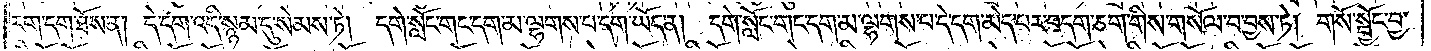རག་དག་ཐོས་ན། དེ་དག་འདི་སྙམ་དུ་སེམས་ཏེ། དགེ་སློང་གང་དག་མ་ལྷགས་པ་དག་ཡོད་ན། དགེ་སློང་གང་དག་མ་ལྷགས་པ་དེ་དག་མེད་པར་བདག་ཅག་གིས་གསོལ་བ་བྱས་ཏེ། གསོ་སྦྱོང་བྱ་
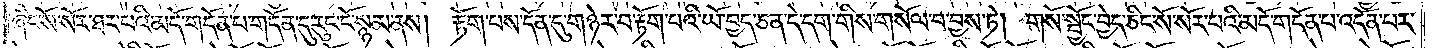ཞིང་སོ་སོར་ཐར་པའི་མདོ་གདོན་པ་གདོན་དུ་རུང་ངོ་སྙམ་ནས། རྟོག་པས་དོན་དུ་གཉེར་བ་རྟོག་པའི་ཡོ་བྱད་ཅན་དེ་དག་གིས་གསོལ་བ་བྱས་ཏེ། གསོ་སྦྱོང་བྱེད་ཅིང་སོ་སོར་པའི་མདོ་གདོན་པ་འདོན་པར་
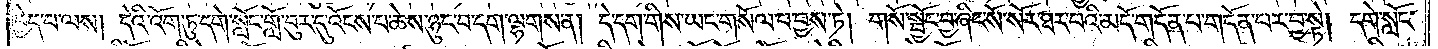བྱད་པ་ལས། དེའི་འོག་ཏུ་དགེ་སློང་གློ་བུར་དུ་འོངས་པ་ཆེས་ཉུང་བ་དག་ལྷགས་ན། དེ་དག་གིས་ཡང་གསོལ་བ་བྱས་ཏེ། གསོ་སྦྱོང་བྱ་ཞིང་སོ་སོར་ཐར་པའི་མདོ་གདོན་པ་གདོན་པར་བྱ་སྟེ། དགེ་སློང་
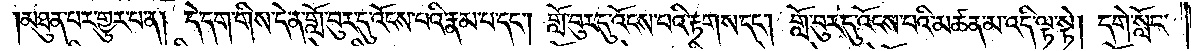མཐུན་པར་གྱུར་པ་ན། དེ་དག་གིས་དེ་ན་གློ་བུར་དུ་འོངས་པའི་རྣམ་པ་དང༌། གློ་བུར་དུ་འོངས་པའི་རྟགས་དང༌། གློ་བུར་དུ་འོངས་པའི་མཚན་མ་འདི་ལྟ་སྟེ། དགེ་སློང་
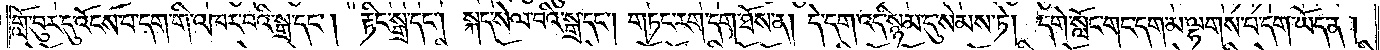གློ་བུར་དུ་འོངས་པ་དག་གི་འཁར་བའི་སྒྲ་དང༌། རྟིང་སྒྲ་དང༌། སྐད་སེལ་བའི་སྒྲ་དང༌། གཏང་རག་དག་ཐོས་ན། དེ་དག་འདི་སྙམ་དུ་སེམས་ཏེ། དགེ་སློང་གང་དག་མ་ལྷགས་པ་དག་ཡོད་ན།
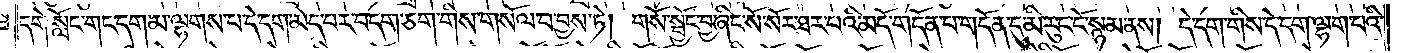དགེ་སློང་གང་དག་མ་ལྷགས་པ་དེ་དག་མེད་པར་བདག་ཅག་གིས་གསོལ་བ་བྱས་ཏེ། གསོ་སྦྱོང་བྱ་ཞིང་སོ་སོར་ཐར་པའི་མདོ་གདོན་པ་གདོན་དུ་མི་རུང་ངོ་སྙམ་ནས། དེ་དག་གིས་དེ་དག་ལྷག་པའི་
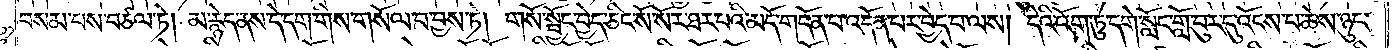བསམ་པས་བཙལ་ཏེ། མ་རྙེད་ནས་དེ་དག་གིས་གསོལ་བ་བྱས་ཏེ། གསོ་སྦྱོང་བྱེད་ཅིང་སོ་སོར་ཐར་པའི་མདོ་གདོན་པ་འདོན་པར་བྱེད་པ་ལས། དེའི་འོག་ཏུ་དགེ་སློང་གློ་བུར་དུ་འོངས་པ་ཆེས་ཉུང་
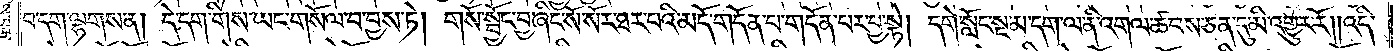བ་དག་ལྷགས་ན། དེ་དག་གིས་ཡང་གསོལ་བ་བྱས་ཏེ། གསོ་སྦྱོང་བྱ་ཞིང་སོ་སོར་ཐར་པའི་མདོ་གདོན་པ་གདོན་པར་བྱ་སྟེ། དགེ་སློང་སྔ་མ་དག་ལ་ནི་འགལ་ཚབས་ཅན་དུ་མི་འགྱུར་རོ། །འདི་
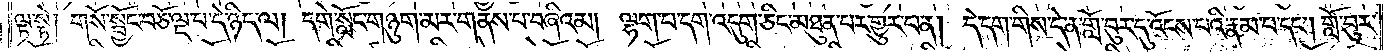ལྟ་སྟེ། གསོ་སྦྱོང་བཅོ་ལྔ་པ་དེ་ཉིད་ལ། དགེ་སློང་གཉུག་མར་གནས་པ་བཞིའམ། ལྷག་པ་དག་འདུག་ཅིང་མཐུན་པར་གྱུར་པ་ན། དེ་དག་གིས་དེ་ན་གློ་བུར་དུ་འོངས་པའི་རྣམ་པ་དང༌། གློ་བུར་
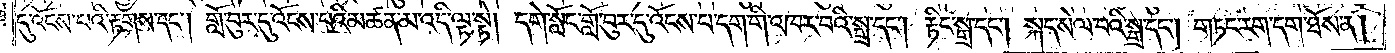དུ་འོངས་པའི་རྟགས་དང༌། གློ་བུར་དུ་འོངས་པའི་མཚན་མ་འདི་ལྟ་སྟེ། དགེ་སློང་གློ་བུར་དུ་འོངས་པ་དག་གི་འཁར་བའི་སྒྲ་དང༌། རྟིང་སྒྲ་དང༌། སྐད་སེལ་བའི་སྒྲ་དང༌། གཏང་རག་དག་ཐོས་ན།
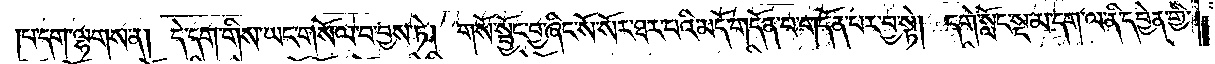པ་དག་ལྷགས་ན། དེ་དག་གིས་ཡང་གསོལ་བ་བྱས་ཏེ། གསོ་སྦྱོང་བྱ་ཞིང་སོ་སོར་ཐར་པའི་མདོ་གདོན་པ་གདོན་པར་བྱ་སྟེ། དགེ་སློང་སྔ་མ་དག་ལ་ནི་དབྱེན་གྱི་
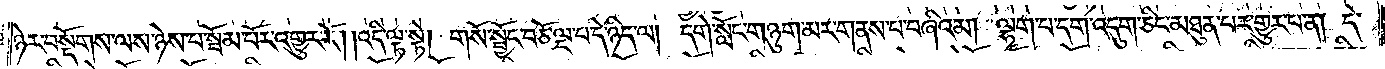ཉེར་བསྡོགས་ལས་ཉེས་པ་སྦོམ་པོར་འགྱུར་རོ། །འདི་ལྟ་སྟེ། གསོ་སྦྱོང་བཅོ་ལྔ་པ་དེ་ཉིད་ལ། དགེ་སློང་གཉུག་མར་གནས་པ་བཞིའམ། ལྷག་པ་དག་འདུག་ཅིང་མཐུན་པར་གྱུར་པ་ན། དེ་
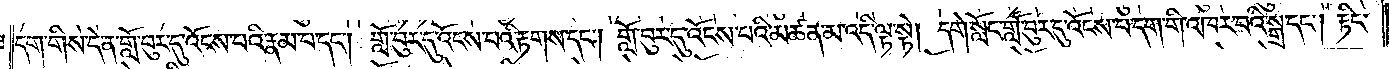དག་གིས་དེ་ན་གློ་བུར་དུ་འོངས་པའི་རྣམ་པ་དང༌། གློ་བུར་དུ་འོངས་པའི་རྟགས་དང༌། གློ་བུར་དུ་འོངས་པའི་མཚན་མ་འདི་ལྟ་སྟེ། དགེ་སློང་གློ་བུར་དུ་འོངས་པ་དག་གི་འཁར་བའི་སྒྲ་དང༌། རྟིང་
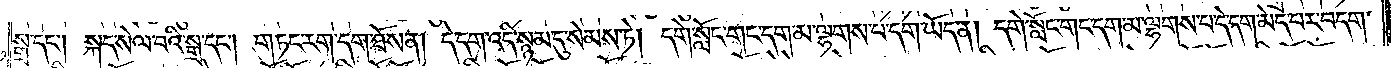སྒྲ་དང༌། སྐད་སེལ་བའི་སྒྲ་དང༌། གཏང་རག་དག་ཐོས་ན། དེ་དག་འདི་སྙམ་དུ་སེམས་ཏེ། དགེ་སློང་གང་དག་མ་ལྷགས་པ་དག་ཡོད་ན། དགེ་སློང་གང་དག་མ་ལྷགས་པ་དེ་དག་མེད་པར་བདག་
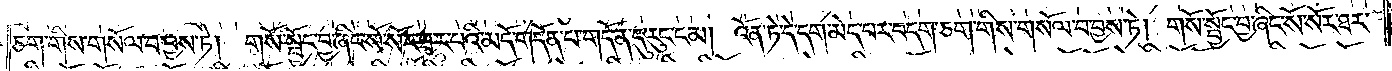ཅག་གིས་གསོལ་བ་བྱས་ཏེ། གསོ་སྦྱོང་བྱ་ཞིང་སོ་སོར་ཐར་པའི་མདོ་གདོན་པ་གདོན་དུ་རུང་ངམ། འོན་ཏེ་དེ་དག་མེད་པར་བདག་ཅག་གིས་གསོལ་བ་བྱས་ཏེ། གསོ་སྦྱོང་བྱ་ཞིང་སོ་སོར་ཐར་
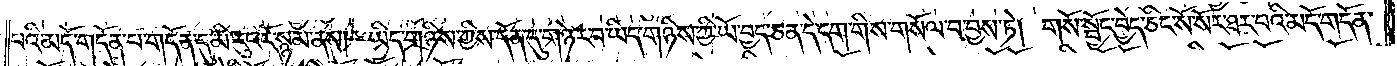པའི་མདོ་གདོན་པ་གདོན་དུ་མི་རུང་ངོ་སྙམ་ནས། ཡིད་གཉིས་ཀྱིས་དོན་དུ་གཉེར་བ་ཡིད་གཉིས་ཀྱི་ཡོ་བྱད་ཅན་དེ་དག་གིས་གསོལ་བ་བྱས་ཏེ། གསོ་སྦྱོང་བྱེད་ཅིང་སོ་སོར་ཐར་པའི་མདོ་གདོན་
